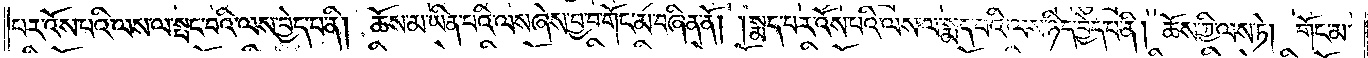པར་འོས་པའི་ལས་ལ་སྤང་བའི་ལས་བྱེད་པ་ནི། ཆོས་མ་ཡིན་པའི་ལས་ཞེས་བྱ་བ་གོང་མ་བཞིན་ནོ། །སྨད་པར་འོས་པའི་ལས་ལ་སྨད་པའི་ལས་ཉིད་བྱེད་པ་ནི། ཆོས་ཀྱི་ལས་ཏེ། གོང་མ་
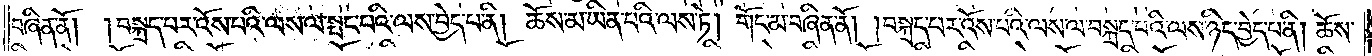བཞིན་ནོ། །བསྐྲད་པར་འོས་པའི་ལས་ལ་སྤང་བའི་ལས་བྱེད་པ་ནི། ཆོས་མ་ཡིན་པའི་ལས་ཏེ། གོང་མ་བཞིན་ནོ། །བསྐྲད་པར་འོས་པའི་ལས་ལ་བསྐྲད་པའི་ལས་ཉིད་བྱེད་པ་ནི། ཆོས་
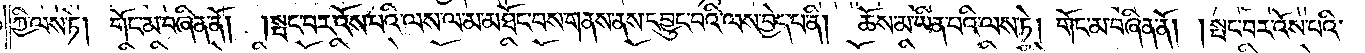ཀྱི་ལས་ཏེ། གོང་མ་བཞིན་ནོ། །སྤང་བར་འོས་པའི་ལས་ལ་མ་མཐོང་བས་གནས་ནས་དབྱུང་བའི་ལས་བྱེད་པ་ནི། ཆོས་མ་ཡིན་པའི་ལས་ཏེ། གོང་མ་བཞིན་ནོ། །སྤང་བར་འོས་པའི་
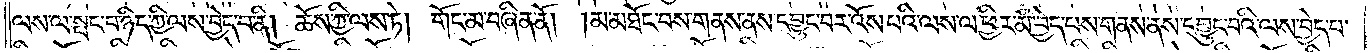ལས་ལ་སྤང་བ་ཉིད་ཀྱི་ལས་བྱེད་པ་ནི། ཆོས་ཀྱི་ལས་ཏེ། གོང་མ་བཞིན་ནོ། །མ་མཐོང་བས་གནས་ནས་དབྱུང་བར་འོས་པའི་ལས་ལ་ཕྱིར་མི་བྱེད་པས་གནས་ནས་དབྱུང་བའི་ལས་བྱེད་པ་
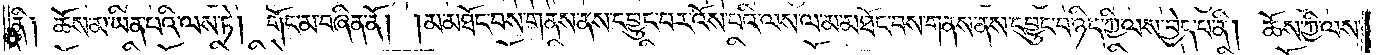ནི། ཆོས་མ་ཡིན་པའི་ལས་ཏེ། གོང་མ་བཞིན་ནོ། །མ་མཐོང་བས་གནས་ནས་དབྱུང་བར་འོས་པའི་ལས་ལ་མ་མཐོང་བས་གནས་ནས་དབྱུང་བ་ཉིད་ཀྱི་ལས་བྱེད་པ་ནི། ཆོས་ཀྱི་ལས་
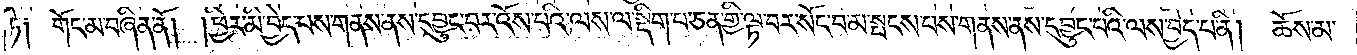ཏེ། གོང་མ་བཞིན་ནོ། །ཕྱིར་མི་བྱེད་པས་གནས་ནས་དབྱུང་བར་འོས་པའི་ལས་ལ་སྡིག་པ་ཅན་གྱི་ལྟ་བར་སོང་བ་མ་སྤངས་པས་གནས་ནས་དབྱུང་བའི་ལས་བྱེད་པ་ནི། ཆོས་མ་
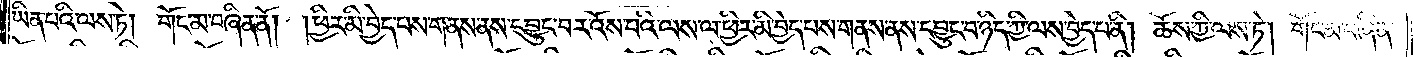ཡིན་པའི་ལས་ཏེ། གོང་མ་བཞིན་ནོ། །ཕྱིར་མི་བྱེད་པས་གནས་ནས་དབྱུང་བར་འོས་པའི་ལས་ལ་ཕྱིར་མི་བྱེད་པས་གནས་ནས་དབྱུང་བ་ཉིད་ཀྱི་ལས་བྱེད་པ་ནི། ཆོས་ཀྱི་ལས་ཏེ། གོང་མ་བཞིན་
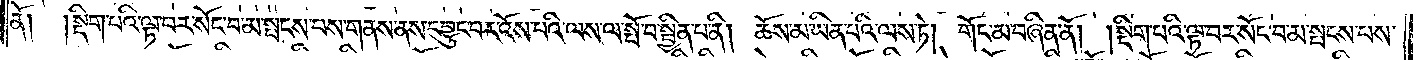ནོ། །སྡིག་པའི་ལྟ་བར་སོང་བ་མ་སྤངས་པས་གནས་ནས་དབྱུང་བར་འོས་པའི་ལས་ལ་སྤོ་བ་སྦྱིན་པ་ནི། ཆོས་མ་ཡིན་པའི་ལས་ཏེ། གོང་མ་བཞིན་ནོ། །སྡིག་པའི་ལྟ་བར་སོང་བ་མ་སྤངས་པས་
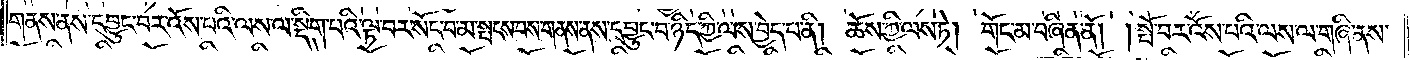གནས་ནས་དབྱུང་བར་འོས་པའི་ལས་ལ་སྡིག་པའི་ལྟ་བར་སོང་བ་མ་སྤངས་པས་གནས་ནས་དབྱུང་བ་ཉིད་ཀྱི་ལས་བྱེད་པ་ནི། ཆོས་ཀྱི་ལས་ཏེ། གོང་མ་བཞིན་ནོ། །སྤོ་བར་འོས་པའི་ལས་ལ་གཞི་ནས་
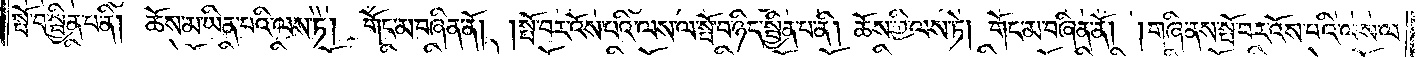སྤོ་བ་སྦྱིན་པ་ནི། ཆོས་མ་ཡིན་པའི་ལས་ཏེ། གོང་མ་བཞིན་ནོ། །སྤོ་བར་འོས་པའི་ལས་ལ་སྤོ་བ་ཉིད་སྦྱིན་པ་ནི། ཆོས་ཀྱི་ལས་ཏེ། གོང་མ་བཞིན་ནོ། །གཞི་ནས་སྤོ་བར་འོས་པའི་ལས་ལ་
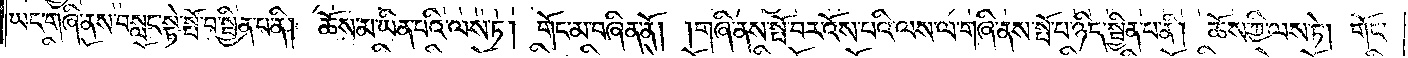ཡང་གཞི་ནས་བསླང་སྟེ་སྤོ་བ་སྦྱིན་པ་ནི། ཆོས་མ་ཡིན་པའི་ལས་ཏེ། གོང་མ་བཞིན་ནོ། །གཞི་ནས་སྤོ་བར་འོས་པའི་ལས་ལ་གཞི་ནས་སྤོ་བ་ཉིད་སྦྱིན་པ་ནི། ཆོས་ཀྱི་ལས་ཏེ། གོང་
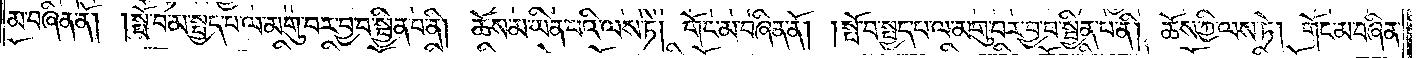མ་བཞིན་ནོ། །སྤོ་བ་མ་སྤྱད་པ་ལ་མགུ་བར་བྱ་བ་སྦྱིན་པ་ནི། ཆོས་མ་ཡིན་པའི་ལས་ཏེ། གོང་མ་བཞིན་ནོ། །སྤོ་བ་སྤྱད་པ་ལ་མགུ་བར་བྱ་བ་སྦྱིན་པ་ནི། ཆོས་ཀྱི་ལས་ཏེ། གོང་མ་བཞིན་
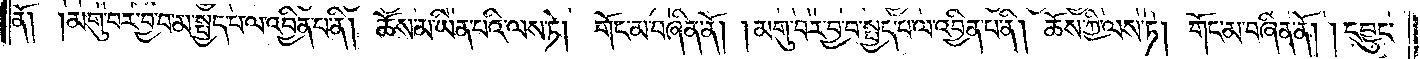ནོ༑ ༑མགུ་བར་བྱ་བ་མ་སྤྱད་པ་ལ་འབྱིན་པ་ནི། ཆོས་མ་ཡིན་པའི་ལས་ཏེ། གོང་མ་བཞིན་ནོ། །མགུ་བར་བྱ་བ་སྤྱད་པ་ལ་འབྱིན་པ་ནི། ཆོས་ཀྱི་ལས་ཏེ། གོང་མ་བཞིན་ནོ། །དབྱུང་
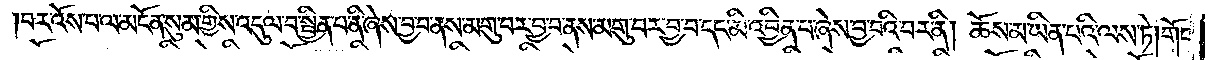བར་འོས་པ་ལ་མངོན་སུམ་གྱིས་འདུལ་བ་སྦྱིན་པ་ནི་ཞེས་བྱ་བ་ནས་མགུ་བར་བྱ་བ་ནས་མགུ་བར་བྱ་བ་དང་མི་འབྱིན་པ་ཞེས་བྱ་བའི་བར་ནི། ཆོས་མ་ཡིན་པའི་ལས་ཏེ། གོང་
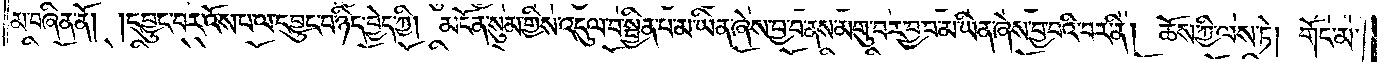མ་བཞིན་ནོ། །དབྱུང་བར་འོས་པ་ལ་དབྱུང་བ་ཉིད་བྱེད་ཀྱི། མངོན་སུམ་གྱིས་འདུལ་བ་སྦྱིན་པ་མ་ཡིན་ཞེས་བྱ་བ་ནས་མགུ་བར་བྱ་བ་མ་ཡིན་ཞེས་བྱ་བའི་བར་ནི། ཆོས་ཀྱི་ལས་ཏེ། གོང་མ་
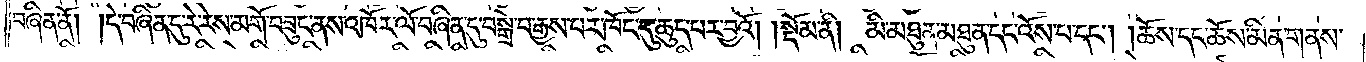བཞིན་ནོ། །དེ་བཞིན་དུ་རེ་རེས་མགོ་བཟུང་ནས་འཁོར་ལོ་བཞིན་དུ་བསྒྲེ་བ་རྒྱས་པར་ཁོང་དུ་ཆུད་པར་བྱའོ། །སྡོམ་ནི། མི་མཐུན་མཐུན་དང་འོས་པ་དང༌། ཆོས་དང་ཆོས་མིན་གནས་
